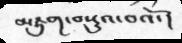མཇུག་བསྡུའ་བའོ་།
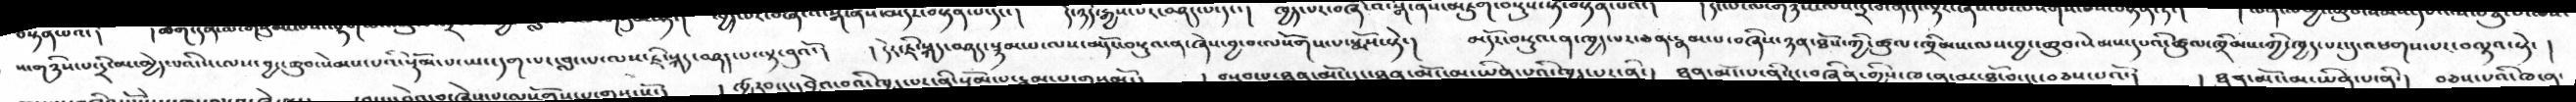ས་གཉིས་པ་དྲི་མ་མྱེད་པའི་ས་ལས་བྱང་ཆུབ་སེམས་པའི་སྡོམ་པ་ཡང་དག་པར་བླང་པ་ལས་ཇི་སྐད་བཤད་པ་ལྟ་བུའོ་།    །དེར་ཇི་སྐད་བཤད་སྙམ་པ་ལས་མདོར་བསྡུའ་ན་ཞེས་བྱ་བ་ལསོགས་པ་སྨོས་སྟེ་།   མདོར་བསྡུའ་ན་ཁྱད་པར་ཅན་རྣམ་པ་བཞིས་ཉན་ཐོས་ཀྱི་ཚུལ་ཁྲིམས་ལས་བྱང་ཆུབ་སེམས་དཔའི་ཚུལ་ཁྲིམས་ཀྱི་ཁྱད་པར་དུ་འཕགས་པར་བལྟའ་སྟེ་ །
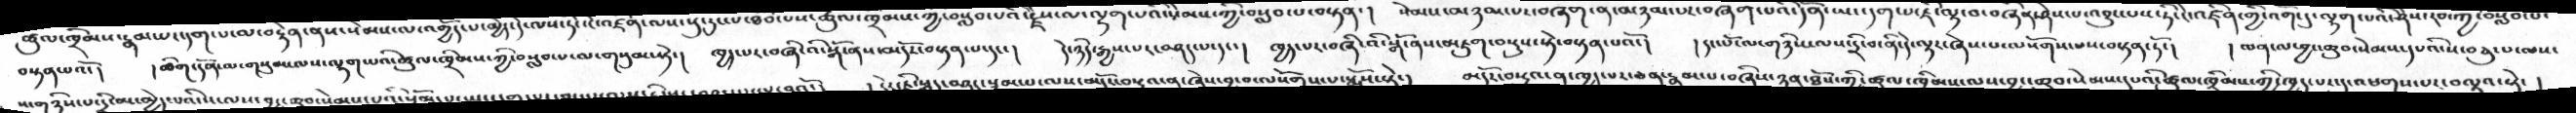བསྟན་པའོ་།   །ཚིག་དོན་ལ་གསུམ་ལས་ལྷག་པའི་ཚུལ་ཁྲིམས་ཀྱི་བསླབ་པ་ལ་གསུམ་སྟེ་།   ཁྱད་པར་བཞི་འི་སྒོ་ནས་མདོར་བསྟན་པ་དང་།   དེ་ཉིད་རྒྱས་པར་བཤད་པ་དང་།    ཁྱད་པར་བཞི་འི་སྒོ་ནས་མཇུག་བསྡུས་སྟེ་བསྟན་པའོ་།    །དང་པོ་ལ་གཉིས་ལས་དྲི་བ་ནི་དེ་ལྟར་ཞེས་པ་ལསོགས་པས་བསྟན་ཏོ་།    ། ལན་ལ་བྱང་ཆུབ་སེམས་དཔའི་ས་བཅུ་པ་ལས་
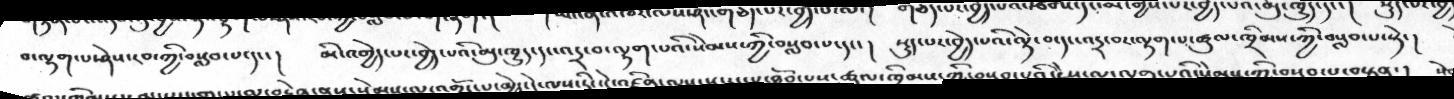བ་ལྷག་པ་ཤེས་རབ་ཀྱི་བསླབ་པ་དང་།    མི་འགྱེད་པར་བྱེད་པའི་མུ་ཁྱུད་དང་འདྲ་བ་ལྷག་པའི་སེམས་ཀྱི་བསླབ་པ་དང་།   སྡུད་པར་བྱེད་པའི་ལྟེ་བ་དང་འདྲ་བར་ལྷག་པ་ཚུལ་ཁྲིམས་ཀྱི་བསླབ་པ་སྟེ་།
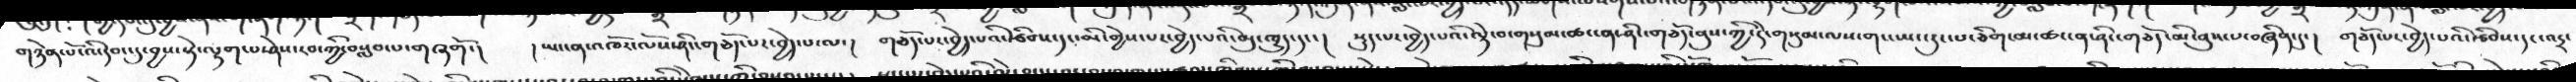གཉེན་པོ་འི་དབང་དུ་བྱས་སྟེ་ལྷག་པ་ཤེས་རབ་ཀྱི་བསླབ་པ་གཞགོ་།   །ཡང་ན་འཁོར་ལོས་ཤིང་གཅོད་པར་བྱེད་པ་ལ་།   གཅོད་པར་བྱེད་པའི་རྩིབས་དང་མི་གྱེས་པར་བྱེད་པའི་མུ་ཁྱུད་དང་།   སྡུད་པར་བྱེད་པའི་ལྟེ་བ་གསུམ་ཚང་ན་ཤིང་གཅོད་ནུས་ཀྱི་དེ་གསུམ་ལས་གང་ཡང་རུང་པ་ཅིག་མ་ཚང་ན་ཤིང་གཅོད་མི་ནུས་པ་བཞིན་དུ་།   གཅོད་པར་བྱེད་པའི་རྩིབས་དང་འདྲ་
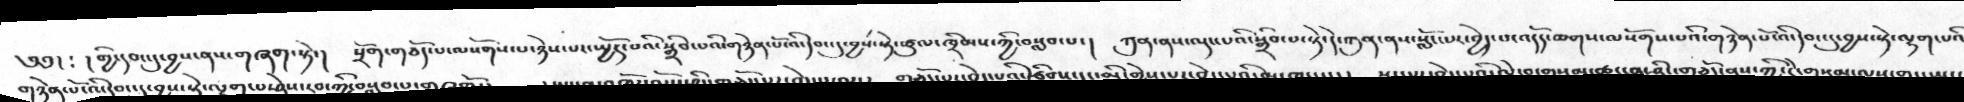༄༅།  ༴  ། གྱི་དབང་དུ་བྱས་ནས་གཞག་སྟེ་།   སྲོག་གཅོད་པ་ལསོགས་པ་ཉེས་པར་སྤྱོད་པའི་སྒྲིབ་པའི་གཉེས་པོ་འི་དབང་དུ་བྱས་སྟེ་ཚུལ་ཁྲིམས་ཀྱི་བསླབ་པ་།   ཀུན་ནས་ལྡང་པའི་སྒྲིབ་པ་སྟེ་དེ་ཀུན་ནས་སློང་པར་བྱེད་པ་འདོད་ཆགས་ལསོགས་པའི་གཉེན་པོ་འི་དབང་དུ་བྱས་སྟེ་ལྷག་པའི
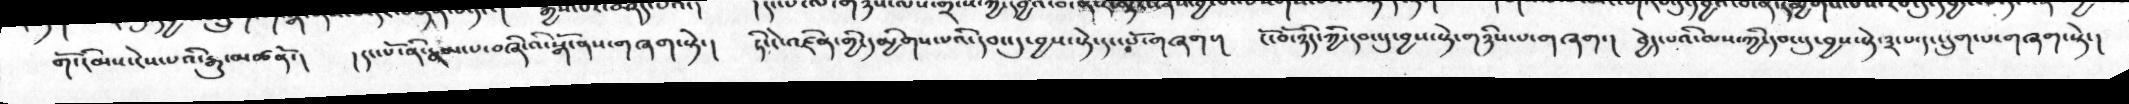གོ་རིམ་ངེས་པའི་རྒྱུ་མཚནོ་།   །དང་པོ་ནི་རྣམ་པ་བཞི་འི་སྒོ་ནས་གཞག་སྟེ་།   ཏིང་ངེ་འཛིན་གྱི་དམྱིགས་པའི་དབང་དུ་བྱས་སྟེ་དང་པོ་གཞག་།   ངོ་བོ་ཉིད་ཀྱི་དབང་དུ་བྱས་སྟེ་གཉིས་པ་གཞག་།  བྱེད་པའི་ལས་ཀྱི་དབང་དུ་བྱས་སྟེ་༣་པ་དང་དྲུག་པ་གཞག་སྟེ་།
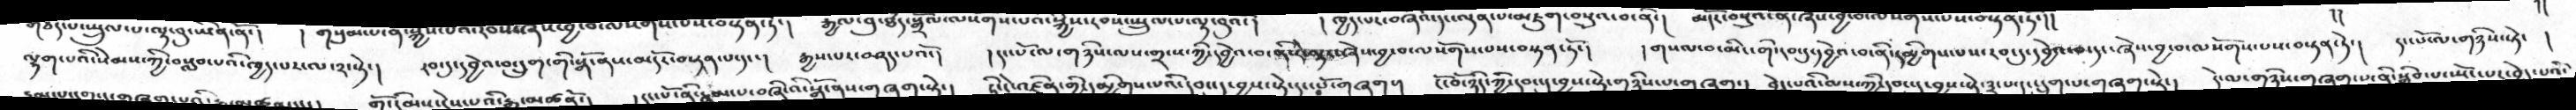ལྷག་པའི་སེམས་ཀྱི་བསླབ་པའི་ཁྱད་པར་ལ་༢་སྟེ་།    རབ་དུ་དབྱེའ་བ་དྲུག་གི་སྒོ་ནས་མདོར་བསྟན་པ་དང་།   རྒྱས་པར་བཤད་པའོ་།    །དང་པོ་ལ་གཉིས་ལས་གྲངས་ཀྱི་དབྱེའ་བ་ནི་དེ་ལྟར་ཞེས་བྱ་བ་ལསོགས་པས་བསྟན་ཏོ་།    །གསལ་བ་མིང་གི་རབ་དུ་དབྱེའ་བ་ནི་དམྱིགས་པས་རབ་དུ་་དབྱེའ་བ་དང་ཞེས་བྱ་བ་ལསོགས་པས་བསྟན་ཏེ་།    དང་པོ་ལ་གཉིས་སྟེ་ །
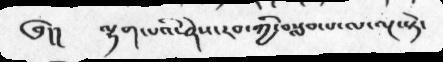༄།།   ལྷག་པའི་ཤེས་རབ་ཀྱི་བསླབ་པ་ལ་ལྔ་སྟེ་
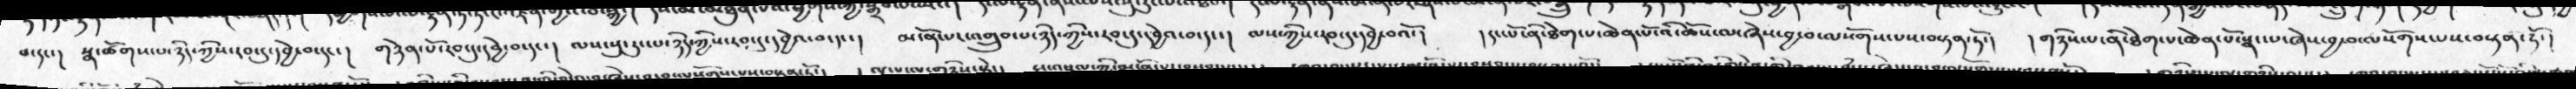བ་དང་།   སྣ་ཚོགས་པ་ཉིད་ཀྱིས་རབ་དུ་དབྱེ་བ་དང་།  གཉེན་པོ་རབ་དུ་དབྱེ་བ་དང་།  ལས་སུ་རུང་པ་ཉིད་ཀྱིས་རབ་དུ་དབྱེའ་བ་དང་།  མངོན་པར་འགྲུབ་པ་ཉིད་ཀྱིས་རབ་དུ་དབྱེའ་བ་དང་།  ལས་ཀྱིས་རབ་དུ་དབྱེ་བའོ་།  །དང་པོ་ནི་ཐེག་པ་ཆེན་པོ་འི་ཆོས་ལ་ཞེས་བྱ་བ་ལསོགས་པས་བསྟན་ཏོ་།   །གཉིས་པ་ནི་ཐེག་པ་ཆེན་པོ་སྣང་པ་ཞེས་བྱ་བ་ལསོགས་པས་བསྟན་ཏོ་།
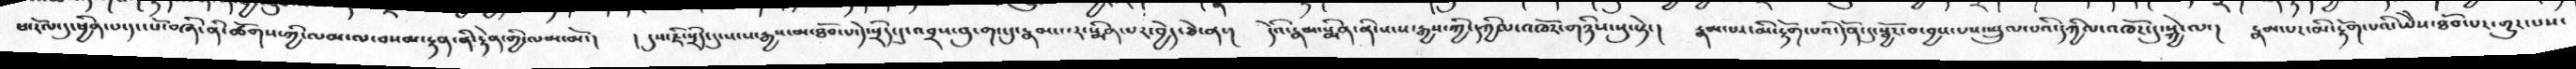ཕ་རོལ་དུ་ཕྱིན་པ་དང་པོ་བཞི་ནི་ཚོགས་ཀྱི་ལམ་ལ་བསམ་རྟན་ནི་རྟེན་གྱི་ལམ་མོ་།   །དུས་ཇི་སྲིད་དུ་སངས་རྒྱས་མ་ཐོབ་པ་དེ་སྲིད་དུ་འབྲས་བུ་གང་དུ་རྣམ་པར་སྨིན་པར་བྱེད་ཅེ་ན་།  དེའི་རྣམ་སྨིན་ནི་སངས་རྒྱས་ཀྱི་དཀྱིལ་འཁོར་གཉིས་སུ་སྟེ་།  རྣམ་པར་མི་རྟོག་པའི་དོན་དུ་སྦྱོང་བ་བྱས་པས་སྤྲུལ་པའི་དཀྱིལ་འཁོར་དུ་སྐྱེ་ལ་།  རྣམ་པར་མི་རྟོག་པའི་ཡཻས་ཐོབ་པར་གྱུར་པས་
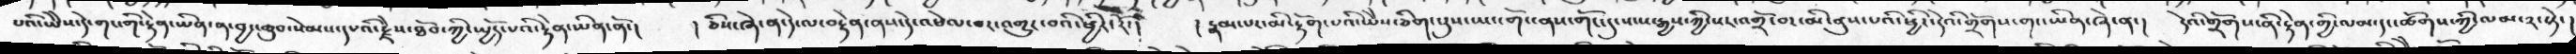པའི་ཡེེས་དེ་གང་གི་རྟེན་ཡིན་ན་བྱང་ཆུབ་སེམས་དཔའི་རྗེས་ཐོབ་ཀྱི་སྤྱོད་པའི་རྟེན་ཡིན་ནོ་།  །ཅིས་ཞེ་ན་དེ་ལ་བརྟེན་ནས་དེ་འཕེལ་བར་འགྱུར་བའི་ཕྱིར་རོ་།   ། རྣམ་པར་མི་རྟོག་པའི་ཡེེས་ཅིག་པུས་ཡང་གོང་ནས་གོང་དུ་སངས་རྒྱས་ཀྱི་སར་འགྲོ་བར་མི་ནུས་པའི་ཕྱིར་དེའི་གྲོགས་གང་ཡིན་ཞེ་ན་།  དེའི་གྲོགས་ནི་རྟེན་གྱི་ལམ་དང་ཚོགས་ཀྱི་ལམ་༢་སྟེ་།
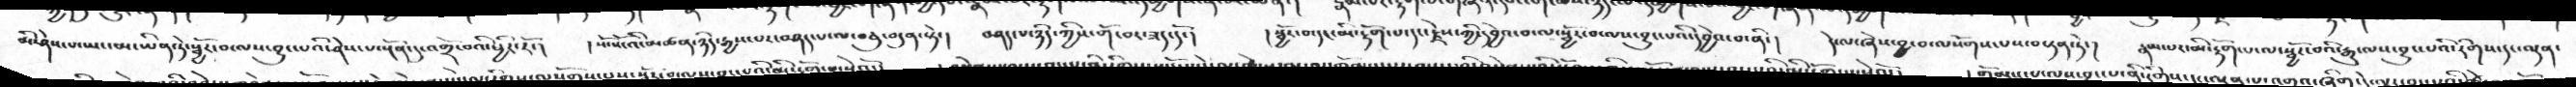མི་ཤེས་པ་ཡང་མ་ཡིན་ཏེ་སྦྱོར་བ་ལས་བྱུང་པའི་ཤེས་པ་སྔོན་དུ་འགྲོ་བའི་ཕྱིར་རོ་།    །སོ་སོ་འི་མཚན་ཉིད་རྒྱས་པར་བཤད་པ་ལ་བཅུ་བདུན་སྟེ་།   བཤད་པ་ཉིད་ཀྱིས་གོ་བར་ཟད་དོ་།    །སྦྱོར་བ་དང་མི་རྟོག་པ་དང་རྗེས་ཀྱི་དབྱེའ་བ་ལ་སྦྱོར་བ་ལས་བྱུང་པའི་དབྱེའ་བ་ནི་།    དེ་ལ་ཞེས་བྱ་བ་ལསོགས་པས་བསྟན་ཏེ་།    རྣམ་པར་མི་རྟོག་པ་ལ་སྦྱོར་བའི་རྒྱུ་ལས་བྱུང་པའི་རིགས་དང་ལྡན་
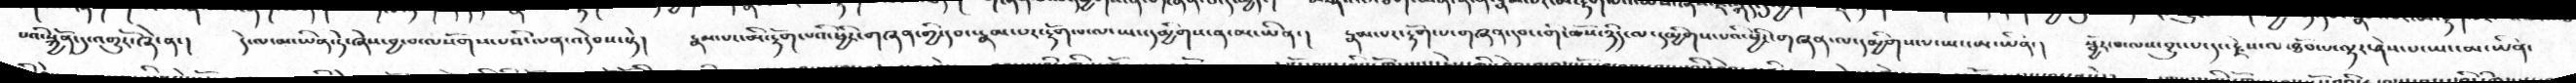པའི་སྐྱོན་དུ་འགྱུརོ་ཞེས་ན་།   དེ་ལ་མ་ཡིན་ཏེ་ཞེས་བྱ་བ་ལསོགས་པའི་ལན་འདེབས་སྟེ།    རྣམ་པར་མི་རྟོག་པའི་ཕྱིར་གཞན་གྱི་དབང་རྣམ་པར་རྟོག་པ་ལ་ཡང་དམྱིགས་ན་མ་ཡིན་།   རྣམ་པར་རྟོག་པ་གཞན་དབང་གི་ཆོས་ཉིད་ལ་དམྱིགས་པའི་ཕྱིར་གཞན་ལ་དམྱིགས་པ་ཡང་མ་ཡིན་།    སྦྱོར་བ་ལས་བྱུང་པ་དང་རྗེས་ལ་ཐོབ་པ་ལྟར་ཤེས་པ་ཡང་མ་ཡིན་
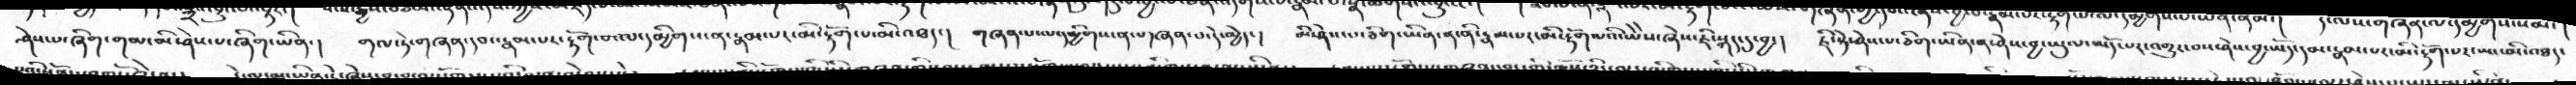ཤེས་པ་ཞིག་གམ་མི་ཤེས་པ་ཞིག་ཡིན་།    གལ་ཏེ་གཞན་དབང་རྣམ་པར་རྟོག་པ་ལ་དམྱིགས་ན་རྣམ་པར་མི་རྟོག་པ་མི་འཐད་།   གཞན་པ་ལ་དམྱིགས་ན་གཞན་པ་དེ་མྱེད་།   མི་ཤེས་པ་ཅིག་ཡིན་ན་ནི་རྣམ་པར་མི་རྟོག་པའི་ཡཻས་ཞེས་ཇི་སྐད་དུ་བྱ་།   ཇི་སྟེ་ཤེས་པ་ཅིག་ཡིན་ན་ཤེས་བྱ་ཡུལ་ཡོད་པར་འགྱུར་བས་ཤེས་བྱ་ཡོད་དམ་རྣམ་པར་མི་རྟོག་པར་ཡང་མི་འཐད་
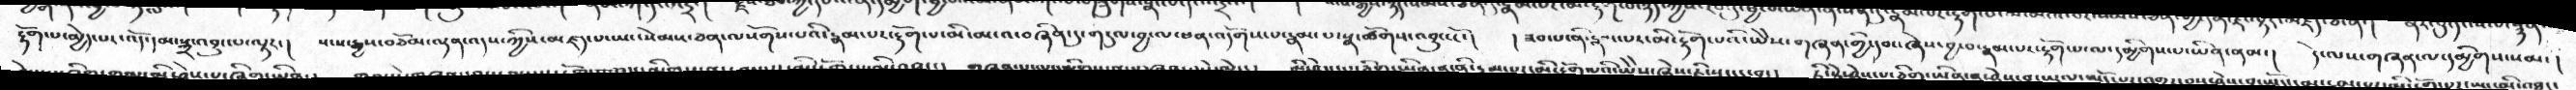རྟོག་པ་མྱེད་པར་འོད་དམ་སྒྲ་འབྱུང་པ་ལྟར་།   སངས་རྒྱས་བཅོམ་ལྡན་འདས་ཀྱིས་མཛད་པ་ཡང་སེམས་ཅན་ལསོགས་པའི་རྣམ་པར་རྟོག་པ་མི་མངའ་བཞིན་དུ་གདུལ་བྱ་ལ་ཕན་འདོགས་པ་རྣམ་པ་སྣ་ཚོགས་འབྱུང་ངོ་།    ། ཟབ་པ་ནི་རྣམ་པར་མི་རྟོག་པའི་ཡཻས་གཞན་གྱི་དབང་ཞེས་བྱ་བ་རྣམ་པར་རྟོག་པ་ལ་དམྱིགས་པ་ཡིན་ནམ་།    དེ་ལས་གཞན་ལ་དམྱིགས་སམ་
